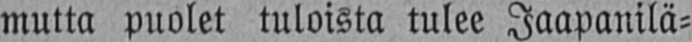muta puolet tuloista tulee Jaapanilä-
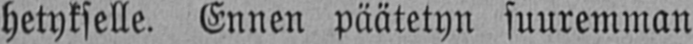hetykselle. Ennen päätetyn suuremman
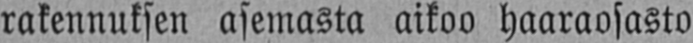rakennuksen asemasta aikoo haaraosasto
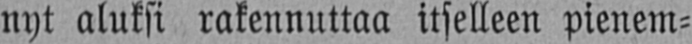nyt aluksi rakennuttaa itselleen pienem-
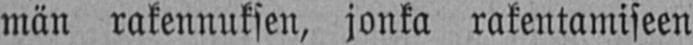män rakennuksen, jonka rakentamiseen
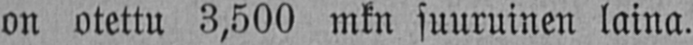on otettu 3,500 mkn suuruinen laina.
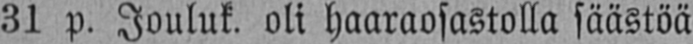31 p. Jouluk. oli haaraosastolla säästöä
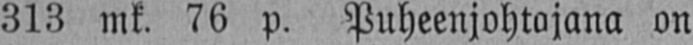313 mk. 76 p. Puheenjohtajana on
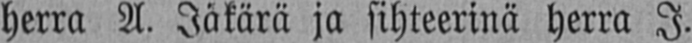herra A. Jäkärä ja sihteerinä herra I.
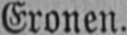Eronen.
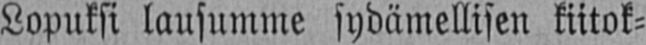Lopuksi lausumme sydämellisen kiitok-
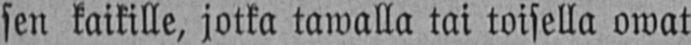sen kaikille, jotka tawalla tai toisella owat
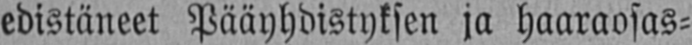edistäneet Pääyhdistyksen ja haaraosas-
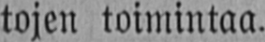tojen toimintaa.
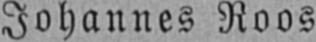Johannes Roos.
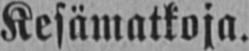Kesämatkoja.
